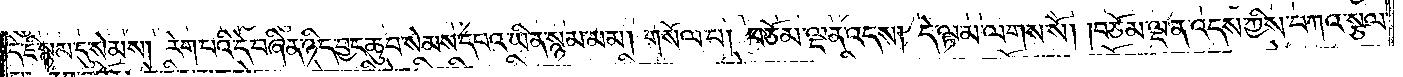དེ་ཇི་སྙམ་དུ་སེམས། རེག་པའི་དེ་བཞིན་ཉིད་བྱང་ཆུབ་སེམས་དཔའ་ཡིན་སྙམ་མམ། གསོལ་པ། བཅོམ་ལྡན་འདས། དེ་ལྟ་མ་ལགས་སོ། །བཅོམ་ལྡན་འདས་ཀྱིས་བཀའ་སྩལ་
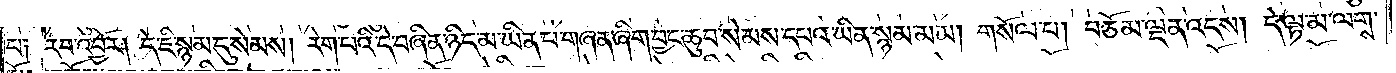པ༑ རབ་འབྱོར། དེ་ཇི་སྙམ་དུ་སེམས། རེག་པའི་དེ་བཞིན་ཉིད་མ་ཡིན་པ་གཞན་ཞིག་བྱང་ཆུབ་སེམས་དཔའ་ཡིན་སྙམ་མམ། གསོལ་པ། བཅོམ་ལྡན་འདས། དེ་ལྟ་མ་ལགས་
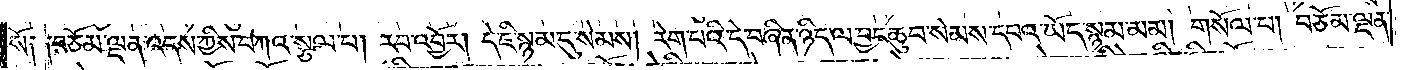སོ༑ ༑བཅོམ་ལྡན་འདས་ཀྱིས་བཀའ་སྩལ་པ། རབ་འབྱོར། དེ་ཇི་སྙམ་དུ་སེམས། རེག་པའི་དེ་བཞིན་ཉིད་ལ་བྱང་ཆུབ་སེམས་དཔའ་ཡོད་སྙམ་མམ། གསོལ་པ། བཅོམ་ལྡན་
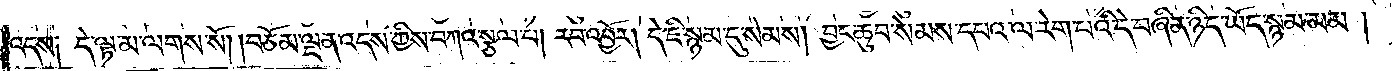འདས༑ དེ་ལྟ་མ་ལགས་སོ། །བཅོམ་ལྡན་འདས་ཀྱིས་བཀའ་སྩལ་པ། རབ་འབྱོར། དེ་ཇི་སྙམ་དུ་སེམས། བྱང་ཆུབ་སེམས་དཔའ་ལ་རེག་པའི་དེ་བཞིན་ཉིད་ཡོད་སྙམ་མམ།
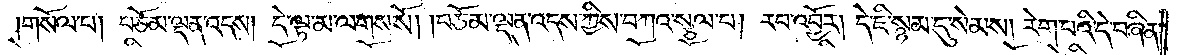གསོལ་པ། བཅོམ་ལྡན་འདས། དེ་ལྟ་མ་ལགས་སོ། །བཅོམ་ལྡན་འདས་ཀྱིས་བཀའ་སྩལ་པ། རབ་འབྱོར། དེ་ཇི་སྙམ་དུ་སེམས། རེག་པའི་དེ་བཞིན་
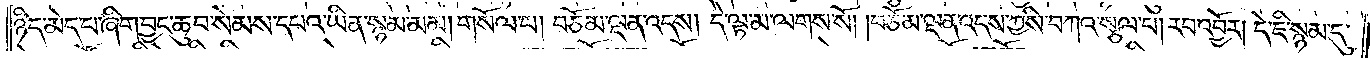ཉིད་མེད་པ་ཞིག་བྱང་ཆུབ་སེམས་དཔའ་ཡིན་སྙམ་མམ། གསོལ་པ། བཅོམ་ལྡན་འདས། དེ་ལྟ་མ་ལགས་སོ། །བཅོམ་ལྡན་འདས་ཀྱིས་བཀའ་སྩལ་པ། རབ་འབྱོར། དེ་ཇི་སྙམ་དུ་
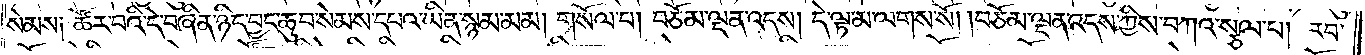སེམས༑ ཚོར་བའི་དེ་བཞིན་ཉིད་བྱང་ཆུབ་སེམས་དཔའ་ཡིན་སྙམ་མམ། གསོལ་པ། བཅོམ་ལྡན་འདས། དེ་ལྟ་མ་ལགས་སོ། །བཅོམ་ལྡན་འདས་ཀྱིས་བཀའ་སྩལ་པ། རབ་
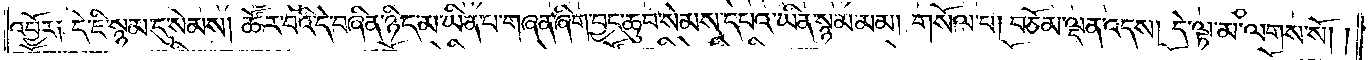འབྱོར༑ དེ་ཇི་སྙམ་དུ་སེམས། ཚོར་བའི་དེ་བཞིན་ཉིད་མ་ཡིན་པ་གཞན་ཞིག་བྱང་ཆུབ་སེམས་དཔའ་ཡིན་སྙམ་མམ། གསོལ་པ། བཅོམ་ལྡན་འདས། དེ་ལྟ་མ་ལགས་སོ། །
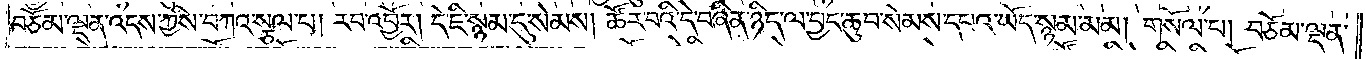བཅོམ་ལྡན་འདས་ཀྱིས་བཀའ་སྩལ་པ། རབ་འབྱོར། དེ་ཇི་སྙམ་དུ་སེམས། ཚོར་བའི་དེ་བཞིན་ཉིད་ལ་བྱང་ཆུབ་སེམས་དཔའ་ཡོད་སྙམ་མམ། གསོལ་པ། བཅོམ་ལྡན་
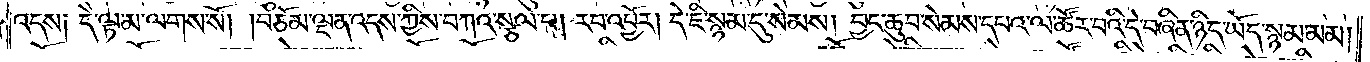འདས༑ དེ་ལྟ་མ་ལགས་སོ། །བཅོམ་ལྡན་འདས་ཀྱིས་བཀའ་སྩལ་པ། རབ་འབྱོར། དེ་ཇི་སྙམ་དུ་སེམས། བྱང་ཆུབ་སེམས་དཔའ་ལ་ཚོར་བའི་དེ་བཞིན་ཉིད་ཡོད་སྙམ་མམ།
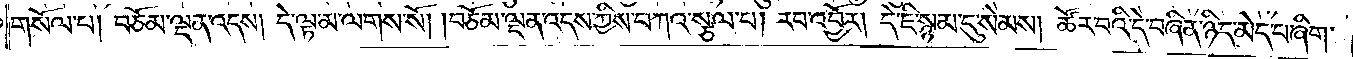གསོལ་པ། བཅོམ་ལྡན་འདས། དེ་ལྟ་མ་ལགས་སོ། །བཅོམ་ལྡན་འདས་ཀྱིས་བཀའ་སྩལ་པ། རབ་འབྱོར། དེ་ཇི་སྙམ་དུ་སེམས། ཚོར་བའི་དེ་བཞིན་ཉིད་མེད་པ་ཞིག་
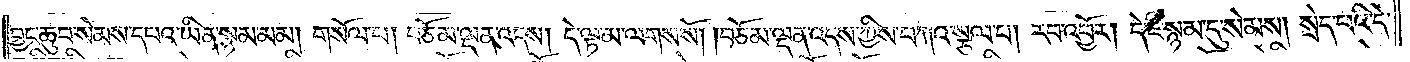བྱང་ཆུབ་སེམས་དཔའ་ཡིན་སྙམ་མམ། གསོལ་པ། བཅོམ་ལྡན་འདས། དེ་ལྟ་མ་ལགས་སོ། །བཅོམ་ལྡན་འདས་ཀྱིས་བཀའ་སྩལ་པ། རབ་འབྱོར། དེ་ཇི་སྙམ་དུ་སེམས། སྲེད་པའི་དེ་
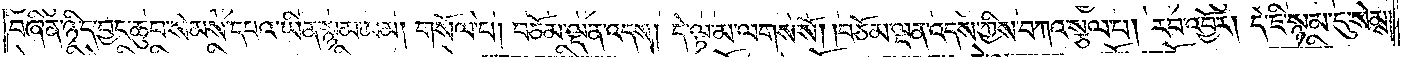བཞིན་ཉིད་བྱང་ཆུབ་སེམས་དཔའ་ཡིན་སྙམ་མམ། གསོལ་པ། བཅོམ་ལྡན་འདས། དེ་ལྟ་མ་ལགས་སོ། །བཅོམ་ལྡན་འདས་ཀྱིས་བཀའ་སྩལ་པ། རབ་འབྱོར། དེ་ཇི་སྙམ་དུ་སེམས།
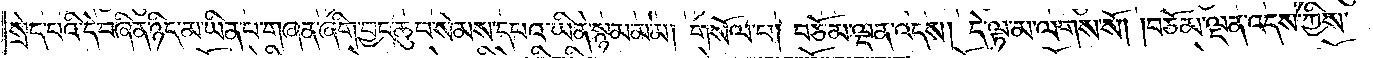སྲེད་པའི་དེ་བཞིན་ཉིད་མ་ཡིན་པ་གཞན་ཞིག་བྱང་ཆུབ་སེམས་དཔའ་ཡིན་སྙམ་མམ། གསོལ་པ། བཅོམ་ལྡན་འདས། དེ་ལྟ་མ་ལགས་སོ། །བཅོམ་ལྡན་འདས་ཀྱིས་
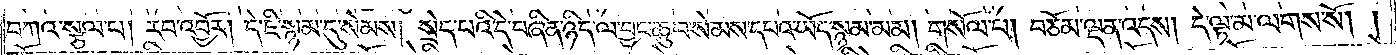བཀའ་སྩལ་པ། རབ་འབྱོར། དེ་ཇི་སྙམ་དུ་སེམས། སྲེད་པའི་དེ་བཞིན་ཉིད་ལ་བྱང་ཆུབ་སེམས་དཔའ་ཡོད་སྙམ་མམ། གསོལ་པ། བཅོམ་ལྡན་འདས། དེ་ལྟ་མ་ལགས་སོ། །
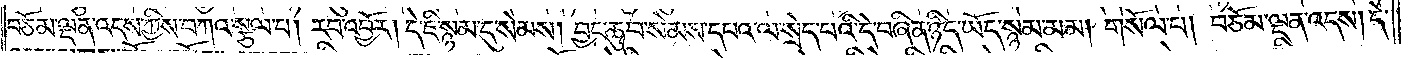བཅོམ་ལྡན་འདས་ཀྱིས་བཀའ་སྩལ་པ། རབ་འབྱོར། དེ་ཇི་སྙམ་དུ་སེམས། བྱང་ཆུབ་སེམས་དཔའ་ལ་སྲེད་པའི་དེ་བཞིན་ཉིད་ཡོད་སྙམ་མམ། གསོལ་པ། བཅོམ་ལྡན་འདས། དེ་
